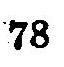78
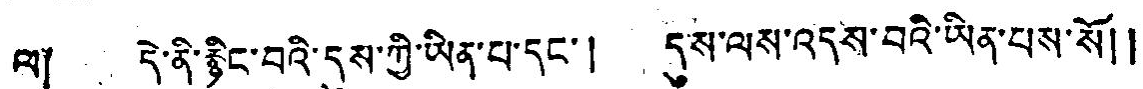ལ༐ དེ་ནི་རྙིང་བའི་དུས་ཀྱི་ཡིན་པ་དང་། དུས་ལས་འདས་བའི་ཡིན་པས་སོ།།
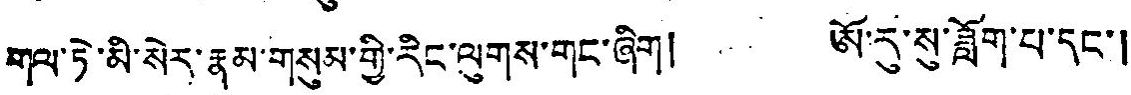གལ་ཏེ་མི་སེར་རྣམ་གསུམ་གྱི་རིང་ལུགས་གང་ཞིག། ཨོ་རུ་སུ་ཟློག་པ་དང་།
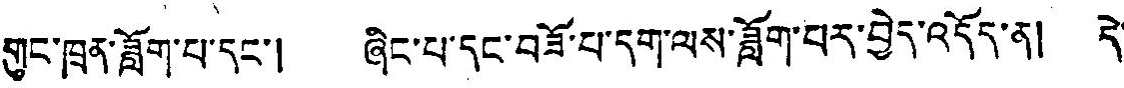གུང་ཁྲན་ཟློག་པ་དང་། ཞིང་པ་དང་བཟོ་པ་དག་ལས་ཟློག་པར་བྱེད་འདོད་ན། དེ་
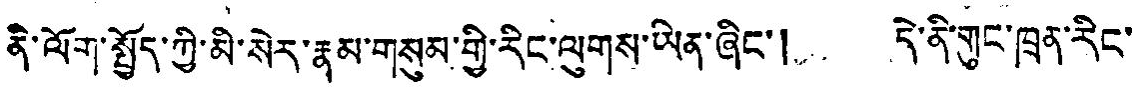ནི་ལོག་སྤྱོད་ཀྱི་མི་སེར་རྣམ་གསུམ་གྱི་རིང་ལུགས་ཡིན་ཞིང་། དེ་ནི་གུང་ཁྲན་རིང་
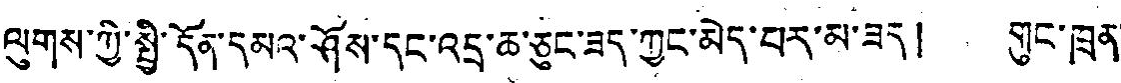ལུགས་ཀྱི་སྤྱི་དོན་དམའ་ཤོས་དང་འདྲ་ཆ་ཅུང་ཟད་ཀྱང་མེད་པར་མ་ཟད། གུང་ཁྲན་
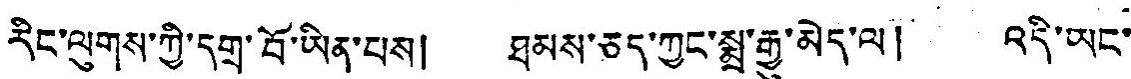རིང་ལུགས་ཀྱི་དགྲ་བོ་ཡིན་པས། ཐམས་ཅད་ཀྱང་སྨྲ་རྒྱུ་མེད་ལ། འདི་ཡང་
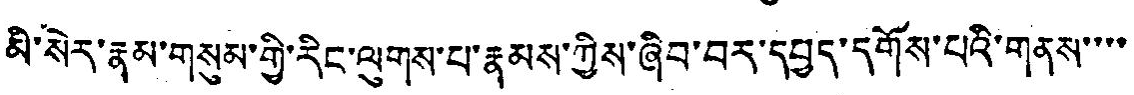མི་སེར་རྣམ་གསུམ་གྱི་རིང་ལུགས་པ་རྣམས་ཀྱིས་ཞིབ་བར་དཔྱད་དགོས་པའི་གནས་་་་
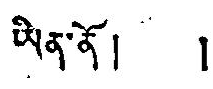ཡིན་ནོ། །
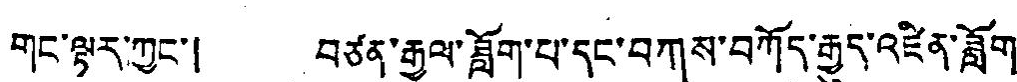གུང་ལྟར་ཀྱང་། བཙན་རྒྱལ་ཟློག་པ་དང་བཀས་བཀོད་རྒྱུད་འཛིན་ཟློག་
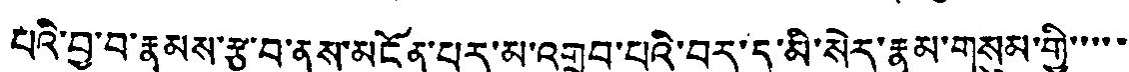པའི་བྱ་བ་རྣམས་རྩ་བ་ནས་མངོན་པར་མ་འགྲུབ་པའི་བར་དུ་མི་སེར་རྣམ་གསུམ་གྱི་་་་་
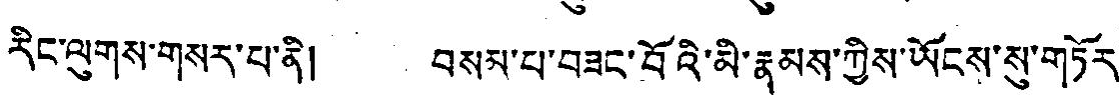རིང་ལུགས་གསར་པ་ནི། བསམ་པ་བཟང་བོའི་མི་རྣམས་ཀྱིས་ཡོངས་སུ་གཏོར་
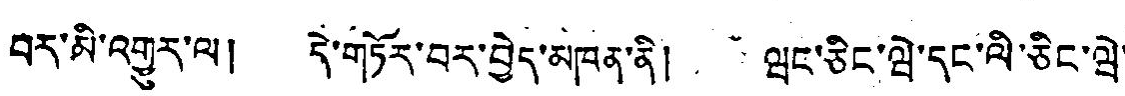བར་མི་འགྱུར་ལ། དེ་གཏོར་བར་བྱེད་མཁན་ནི། ཝང་ཅིང་ཝེ་དང་ལི་ཅིང་ཝེ་
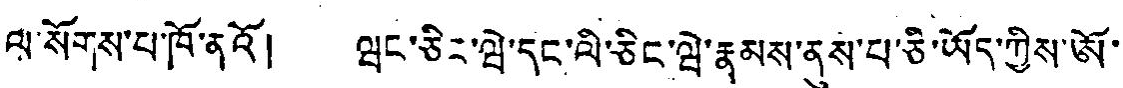ལ་སོགས་པ་ཁོ་ནའོ། ཝང་ཅིང་ཝེ་དང་ལི་ཅིང་ཝེ་རྣམས་ནས་པ་ཅི་ཡོད་ཀྱིས་ཨོ་
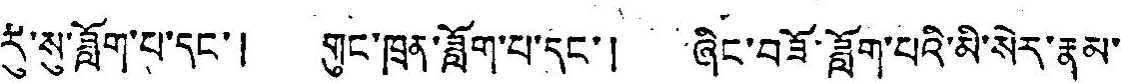རི་སུ་ཟློག་པ་དང་། གུང་ཁྲན་ཟློག་པ་དང་། ཞིང་བཟོ་ཟློག་པའི་མི་སེར་རྣམ་
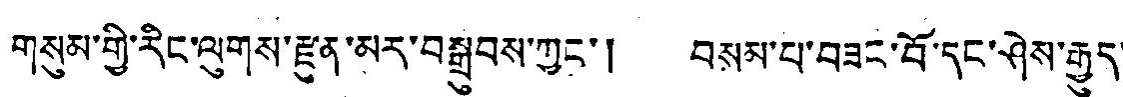གསུམ་གྱི་རིང་ལུགས་རྫུན་མར་བསྒྲུབས་ཀྱང་། བསམ་པ་བཟུང་བོ་དང་ཤེས་རྒྱུད་
